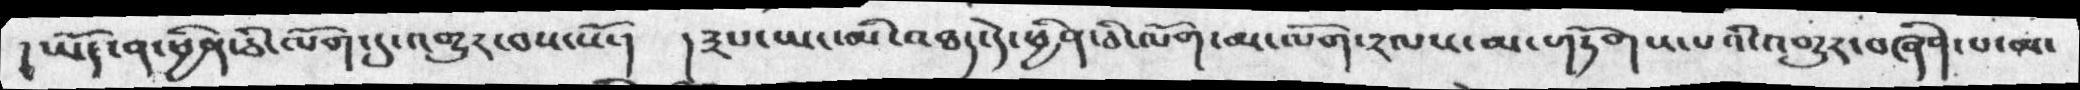། ཡོད་ན་ཕྱི་ཅི་ལོག་དུ་འགྱུར་བས་སོ་།  །༣པ་ཡང་མི་འཐད་དེ་ཕྱིན་ཅི་ལོག་མ་ལོག་༢ལས་མ་གཏོགས་པའི་འགྱུར་བཞིན་པ་ལ་
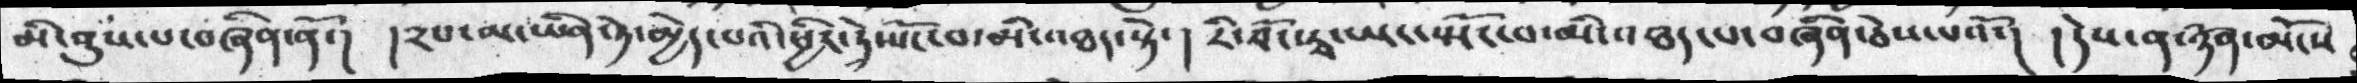མི་ནུས་པ་བཞིན་ནོ་།  །༢པ་མ་ཡིན་ཏེ་མྱེད་པའི་ཕྱིར་ཏེ་ཡོང་བ་མི་འཐད་སྟེ་།  རི་བོང་རྭ་ཡང་སྤོང་བ་མི་འཐད་པ་བཞིན་ཅེས་པའོ་།  ། དེས་ན་ཉོན་མོངས
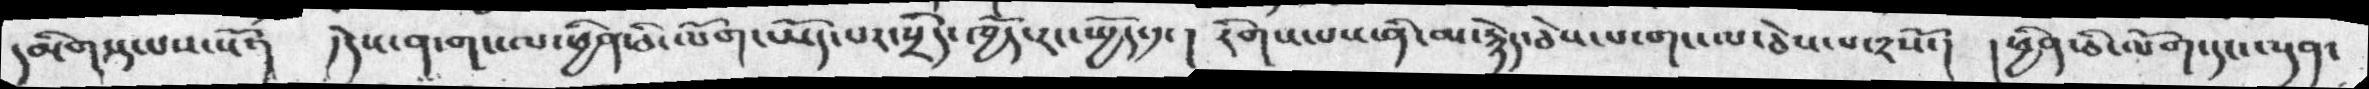དམིགས་པས་སོ་།  །དེས་ན་གང་ལ་ཕྱིན་ཅི་ལོག་ཡོད་པར་སྲིད་ཁྱོད་རང་སྤྱོད་༡ ། རིགས་པས་ནི་མ་རྙེད་ཅེས་པ་གང་ལ་ཅེས་པ་༢སོ་།  །ཕྱིན་ཅི་ལོག་དང་ལྡན་
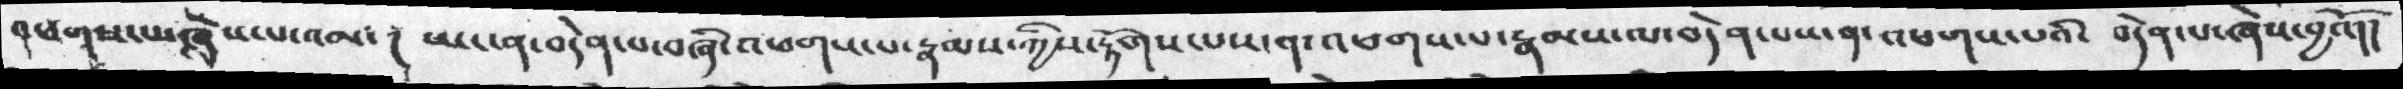འཕགས་པ་ཞེས་པ་འམ་།  ཡང་ན་བདེན་པ་བཞི་འཕགས་པ་རྣམས་ཀྱིས་རྟོགས་པས་༡་འཕགས་པ་རྣམས་ལ་བདེན་པས་ན་འཕགས་པའི་  བདེན་པ་ཞེས་བྱའོ་།།
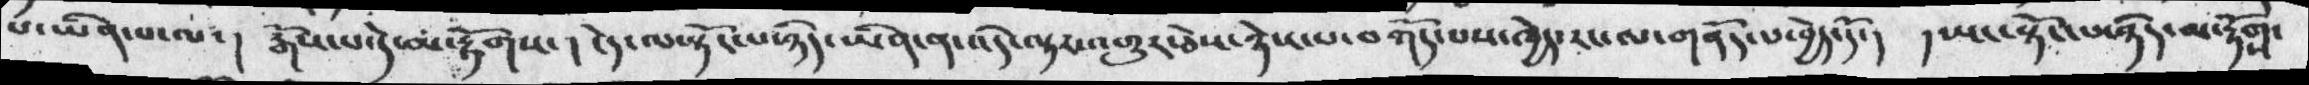པ་ཡིན་པ་ལ་།  རྒོས་པ་དེ་མ་རྟོགས་།  ངེད་ལ་སྟོང་པ་ཉིད་ཡིན་ན་འདི་ལྟར་འགྱུར་ཅེས་ཉེས་པ་བཀོད་པས་ཁྱེད་རང་ལ་གནོད་པ་བྱེད་དོ་།  ། ཡང་སྟོང་པ་ཉིད་མ་རྟོགས་
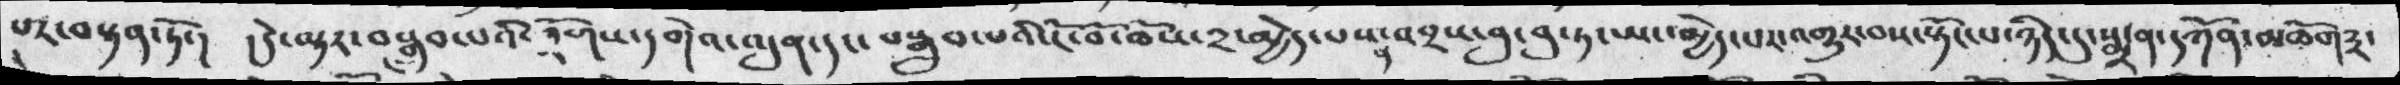པར་བསྟན་ཏོ་།  ། དེ་ལྟར་བསྒྲུབ་པའི་ཀྲོགས་དགེའ་འདུན་དང་བསྒྲུབ་པའི་ངོ་བོ་ཆོས་༢་མྱེད་པས་༡་འབྲས་བུ་བུ་ཏ་ཡང་མྱེད་པར་འགྱུར་བས་སྟོང་པ་ཉིད་དུ་སྨྲ་ན་དཀོན་མཆོད༣་
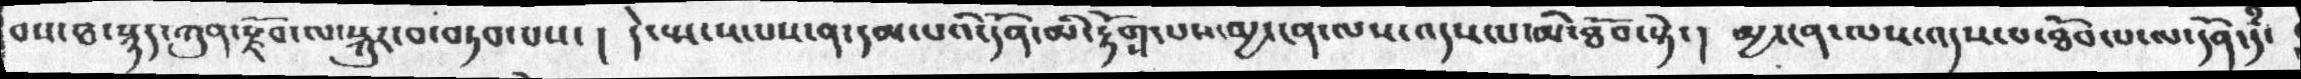བས་ཐ་སྙད་ཀུན་རྫོབ་ལ་སྐུར་བ་བཏབ་པས་།  དེ་སྤངས་པས་ན་དམ་པའི་དོན་མི་རྟོགས་པས་མྱ་ངན་ལས་འདས་པ་མི་ཐོབ་སྟེ་།  མྱ་ངན་ལས་འདས་པ་ཐོབ་པ་ལ་དོན་དཾ་
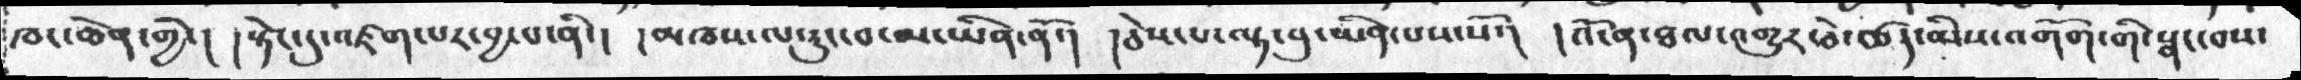ཁང་ཆེན་གྱི་།  ། སྟེང་དུ་འཛག་པར་བྱ་པ་ནི་།  །མཁས་ལ་རུང་བ་མ་ཡིན་ནོ་།  །ཅེས་པ་ལྟ་བུ་ཡིན་པས་སོ་།   ། འོ་ན་ཐལ་འགྱུར་ཅེས་ཚད་མིས་འགོག་གི་སྣང་བས་
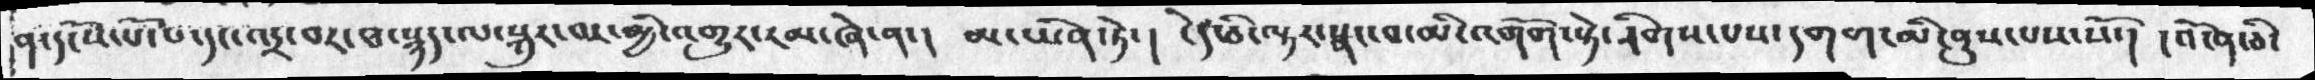ན་དངོས་པོ་པ་དང་འདྲ་བར་ཐ་སྙད་ལ་སྐུར་བར་མྱི་འགྱུར་རམ་ཞེ་ན་།  མ་ཡིན་ཏེ་།  ངེད་ཅི་ལྟར་སྣང་བ་མི་འགོག་སྟེ་རིགས་པས་དགག་མི་ནུས་པས་སོ་།  །འོ་ན་ཅི་
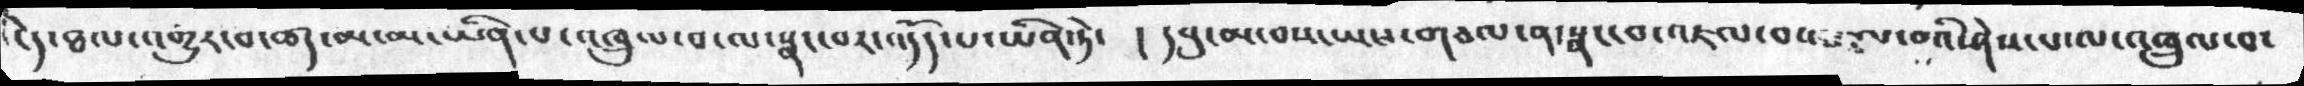ངེད་ཐལ་འགྱུར་བ་ཚད་མ་མ་ཡིན་པ་འཁྲུལ་པ་ལ་སྣང་པར་འདོད་པ་ཡིན་ཏེ་  །  དབུ་མ་པས་ཡངས་གཅལ་ན་སྣང་བ་འཇལ་བས་བསྔལ་བའི་ཤེས་པ་ལ་འཁྲུལ་བ་
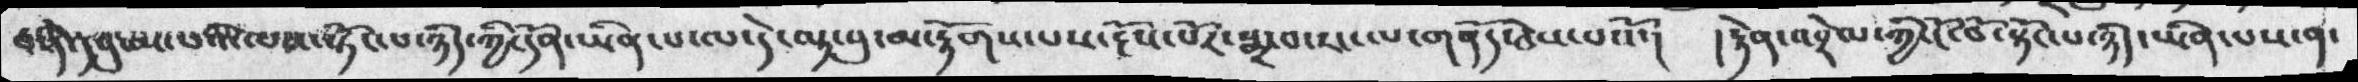བཞི་དབུས་པའི་ལས་སྟོང་པ་ཉིད་ཀྱི་དོན་ཡིན་པ་ལ་དེ་ལྟ་བུ་མ་རྟོགས་པས་རྔོས་པོར་སྨྲ་བ་རང་ལ་གནོད་ཅེས་པའོ་།  ། རྟེན་འབྲེལ་ཀྱི་ངོ་བོ་སྟོང་པ་ཉིད་ཡིན་པས་ན་
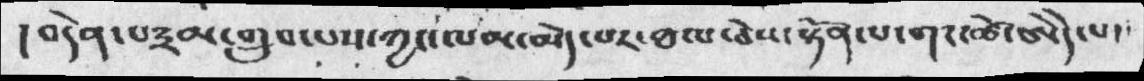།བདེན་པ༣མ་གྲུབ་པས་ཀྱང་ལམ་མེད་པར་ཐལ་ཅེས་སྟོན་པ་གང་ཚེ་ཨེདེ་པ་
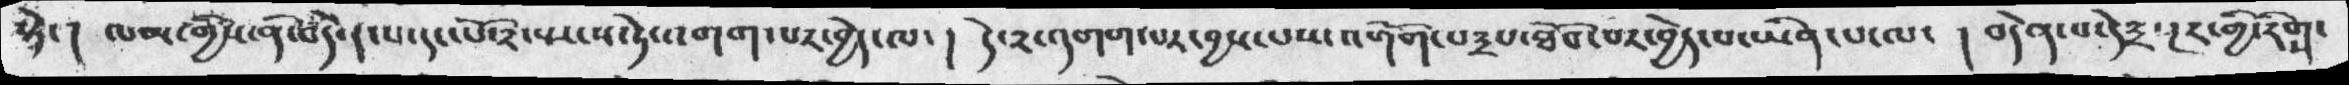སྟེ་།  ལམ་གྱིས་ནི་བདེ་པ་དང་པོ་༢་སྤངས་ཏེ་འགག་པར་བྱེད་ལ་།  དེ་༢་འགག་པར་བྱས་པས་འགོག་པ༣པ་ཐོབ་པར་བྱེད་པ་ཡིན་པ་ལ་  །  བདེན་པ་དེ༣སྔར་གྱི་རིགས་
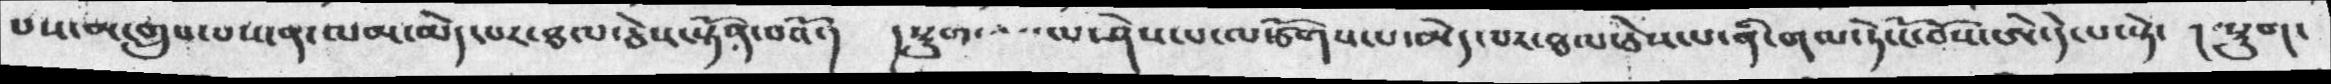པས་མ་གྲུབ་པ་ཡན་ལམ་མེད་པར་ཐལ་ཅེས་སྟོན་པའོ་།  ། སྡུག་བསྔལ་པ་ཤེས་པ་ལ་ཙོགས་པ་མེད་པར་ཐལ་ཅེས་པ་ནི་གལ་ཏེ་ངོ་བོས་ཨེ་དེ་པ་སྟེ་  །  སྡུག་
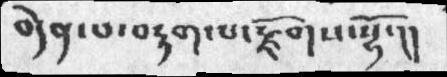བདེན་པ་བརྟག་པ་རྫོགས་སྷོ་།།
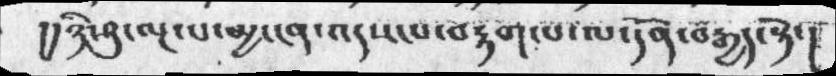།།ཉི་ཤུ་ལྔ་པ་མྱ་ངན་འདས་པ་བརྟག་པ་ལ་དོན་བརྒྱད་སྟེ་།
